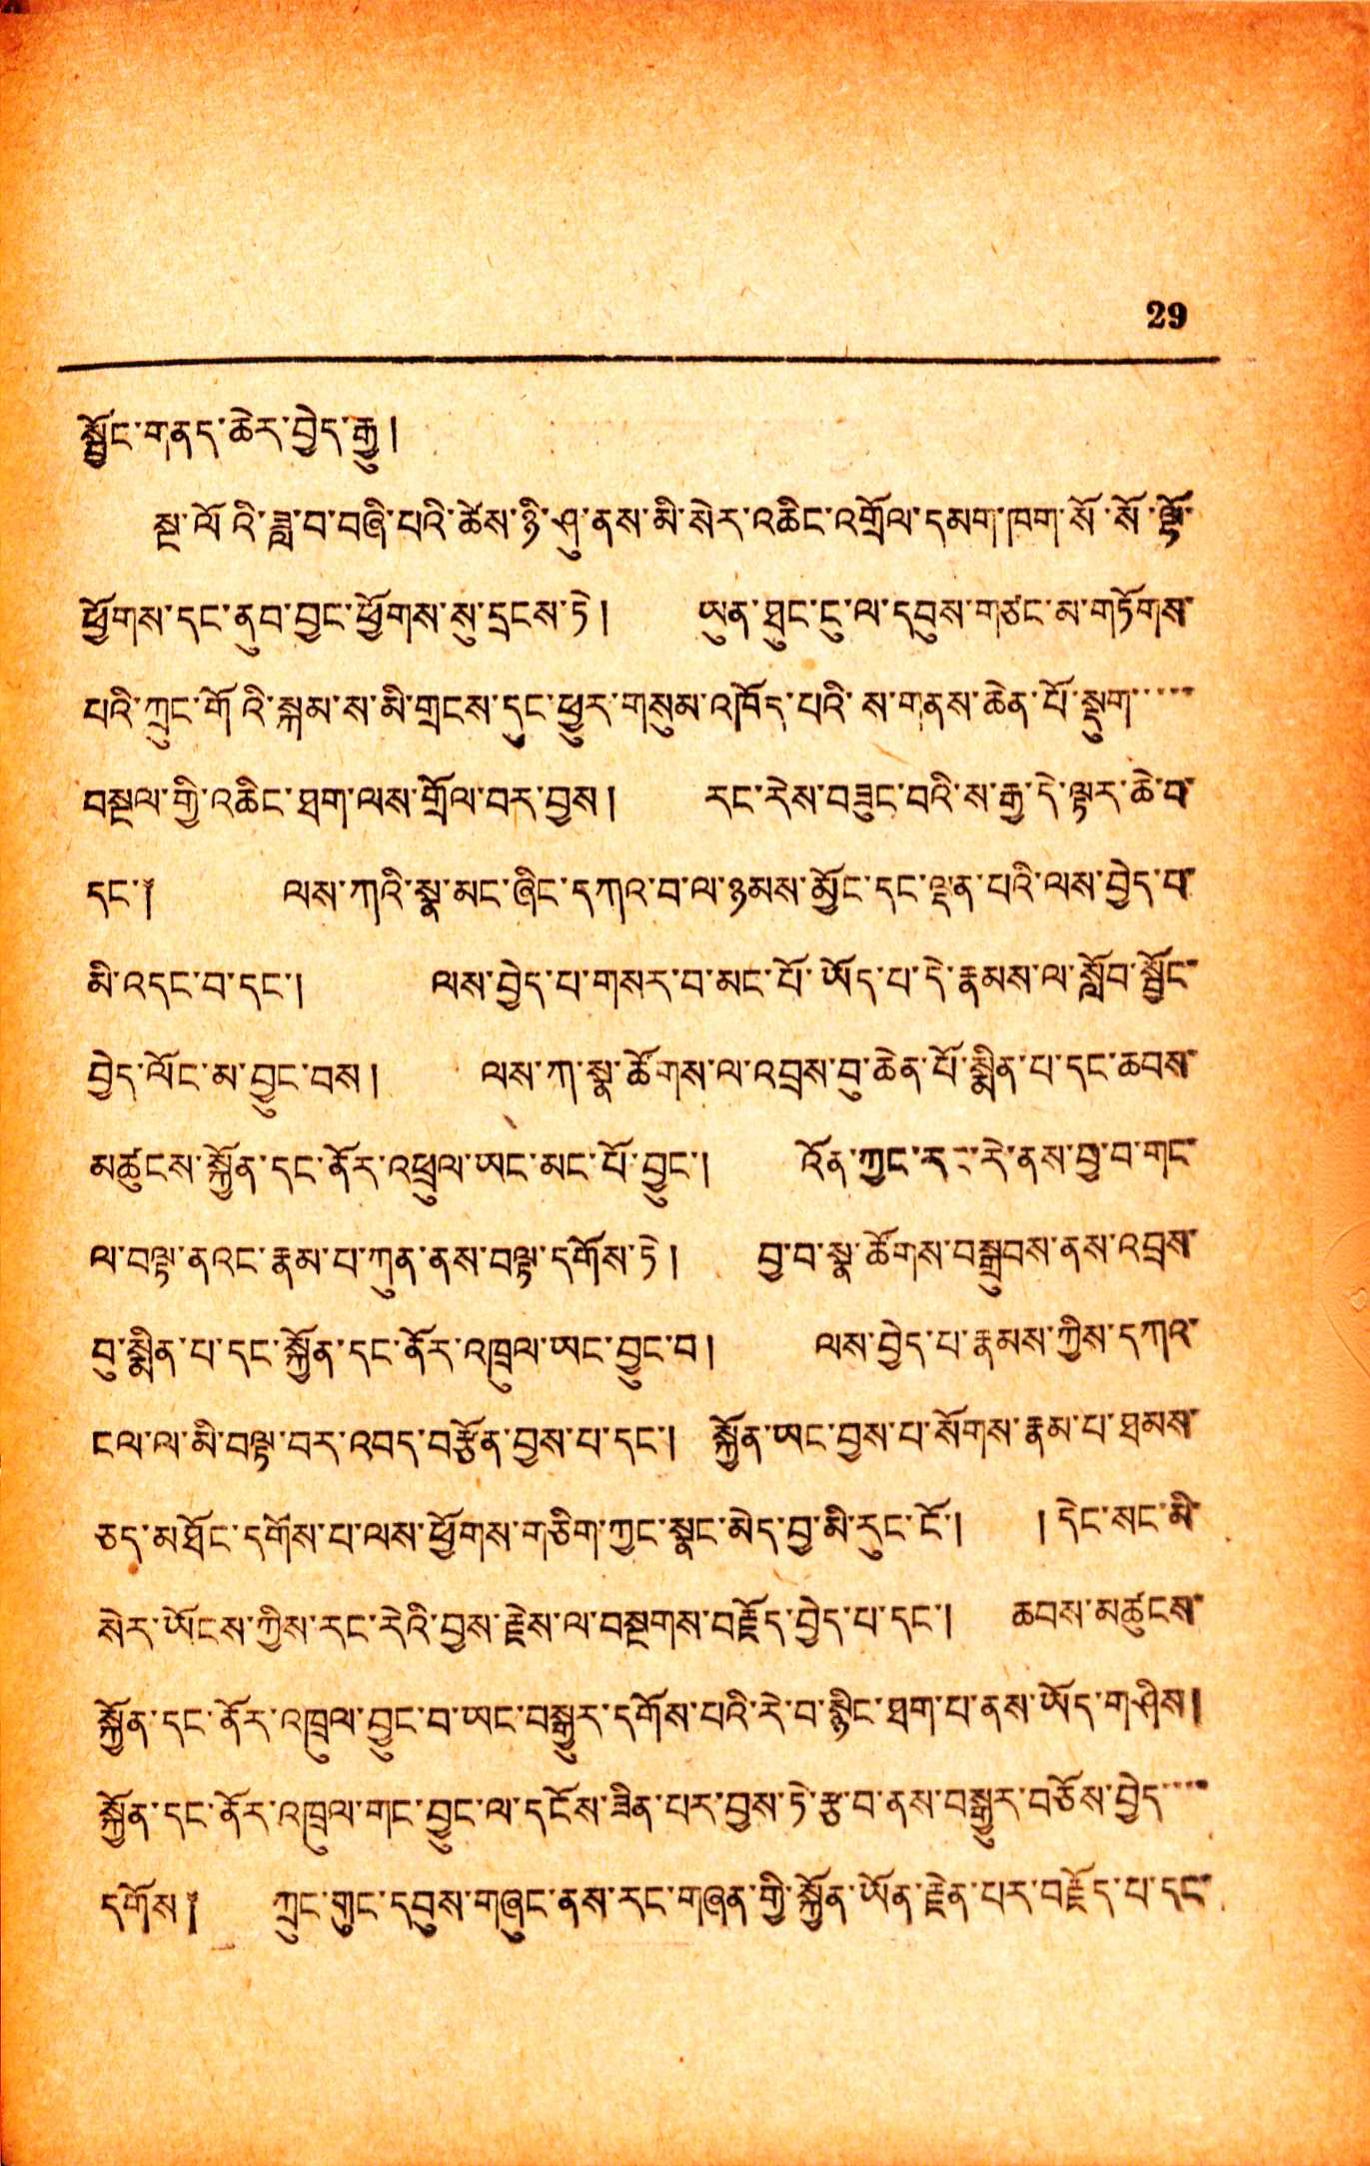29
སྦྱོང་གནད་ཆེར་བྱེད་རྒྱུ།
སྔ་ལོའི་ཟླ་བ་བཞི་བའི་ཚེས་ཉི་ཤུ་ནས་མི་སེར་འཆིང་འགྲོལ་དམག་ཁག་སོ་སོ་ལྷོ་
ཕྱོགས་དང་ནུབ་བྱང་ཕྱོགས་སུ་དྲངས་ཏེ། ཡུན་ཐུང་ངུ་ལ་དབུས་གཙང་མ་གཏོགས་
པའི་ཀྲུང་གོའི་སྐམ་ས་མི་གྲངས་དུང་ཕྱུར་གསུམ་འཁོད་པའི་ས་གནས་ཆེན་པོ་སྡུག་་་་་
བསྔལ་གྱི་འཆིང་ཐག་ལས་གྲོལ་བར་བྱས། རང་རེས་བཟུང་བའི་ས་རྒྱ་དེ་ལྟར་ཆེ་བ་
དང་༐ ལས་ཀའི་སྣ་མང་ཞིང་དཀའ་བ་ལ་ཉམས་མྱོང་དང་ལྡན་པའི་ལས་བྱེད་པ་
མི་འདང་བ་དང་། ལས་བྱེད་པ་གསར་བ་མང་པོ་ཡོད་པ་དེ་རྣམས་ལ་སློབ་སྦྱོང་
བྱེད་ལོང་མ་བྱུང་བས། ལལ་ཀ་སྣ་ཚོགས་ལ་འབྲས་བུ་ཆེན་པོ་སྨིན་པ་དང་ཆབས་
མཚུངས་སྐྱོན་དང་ནོར་འཕྲུལ་ཡང་མང་པོ་བྱུང་། འོན་ཀྱང་རང་རེ་ནས་བྱ་བ་གང་
ལ་བལྟ་ནའང་རྣམ་པ་ཀུན་ནས་བལྟ་དགོས་ཏེ། བྱ་བ་སྣ་ཚོགས་བསྒྲུབས་ནས་འབྲས་
བུ་སྨིན་པ་དང་སྐྱོན་དང་ནོར་འཁྲུལ་ཡང་བྱུང་བ། ལས་བྱེད་པ་རྣམས་ཀྱིས་དཀའ་
ངལ་ལ་མི་བལྟ་བར་འབད་བརྩོན་བྱས་པ་དང་། སྐྱོན་ཡང་བྱས་པ་སོགས་རྣམ་པ་ཐམས་
ཅད་མཐོང་འགོས་པ་ལས་ཕྱོགས་གཅིག་ཀྱང་སྣང་མེད་བྱ་མི་རུང་ངོ་། །དེང་སང་མི་
སེར་ཡོངས་ཀྱིས་རང་རེའི་བྱས་རྗེས་ལ་བསྔགས་བརྗོད་བྱེད་པ་དང་། ཆབས་མཚུངས་
སྐྱོན་དང་ནོར་འཁྲུལ་བྱུང་བ་ཡང་བསྒྱུར་དགོས་པའི་རེ་བ་སྙིང་ཐག་པ་ནས་ཡོད་གཤིས།
སྐྱོན་དང་ནོར་འཁྲུལ་གང་བྱུང་ལ་དངོས་ཟིན་པར་བྱས་ཏེ་རྩ་བ་ནས་བསྒྱུར་བཅོས་བྱེད་་་་
དགོས༈ ཀུང་གུང་དབུས་གཞུང་ནས་རང་གཞན་གྱི་སྐྱོན་ཡོན་རྗེན་པར་བརྗོད་པ་དང་
